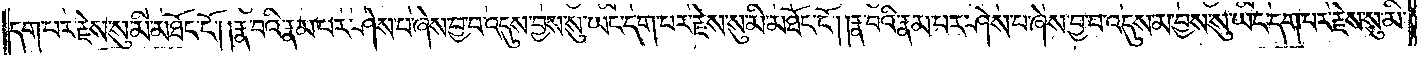དག་པར་རྗེས་སུ་མི་མཐོང་ངོ༌། །རྣ་བའི་རྣམ་པར་ཤེས་པ་ཞེས་བྱ་བ་འདུས་བྱས་སུ་ཡང་དག་པར་རྗེས་སུ་མི་མཐོང་ངོ༌། །རྣ་བའི་རྣམ་པར་ཤེས་པ་ཞེས་བྱ་བ་འདུས་མ་བྱས་སུ་ཡང་དག་པར་རྗེས་སུ་མི་
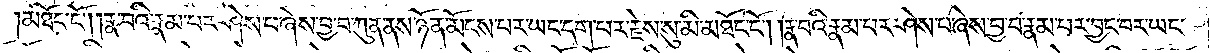མཐོང་ངོ༌། །རྣ་བའི་རྣམ་པར་ཤེས་པ་ཞེས་བྱ་བ་ཀུན་ནས་ཉོན་མོངས་པར་ཡང་དག་པར་རྗེས་སུ་མི་མཐོང་ངོ༌། །རྣ་བའི་རྣམ་པར་ཤེས་པ་ཞེས་བྱ་བ་རྣམ་པར་བྱང་བར་ཡང་
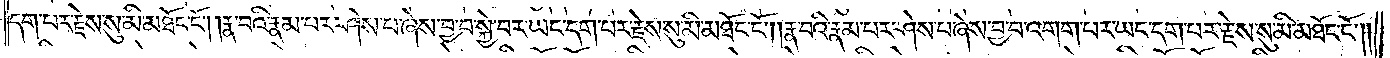དག་པར་རྗེས་སུ་མི་མཐོང་ངོ༌། །རྣ་བའི་རྣམ་པར་ཤེས་པ་ཞེས་བྱ་བ་སྐྱེ་བར་ཡང་དག་པར་རྗེས་སུ་མི་མཐོང་ངོ༌། །རྣ་བའི་རྣམ་པར་ཤེས་པ་ཞེས་བྱ་བ་འགག་པར་ཡང་དག་པར་རྗེས་སུ་མི་མཐོང་ངོ༌༎
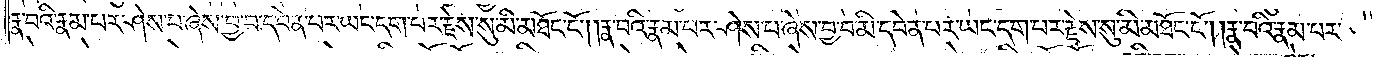རྣ་བའི་རྣམ་པར་ཤེས་པ་ཞེས་བྱ་བ་དབེན་པར་ཡང་དག་པར་རྗེས་སུ་མི་མཐོང་ངོ༌། །རྣ་བའི་རྣམ་པར་ཤེས་པ་ཞེས་བྱ་བ་མི་དབེན་པར་ཡང་དག་པར་རྗེས་སུ་མི་མཐོང་ངོ༌། །རྣ་བའི་རྣམ་པར་
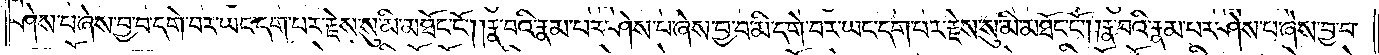ཤེས་པ་ཞེས་བྱ་བ་དགེ་བར་ཡང་དག་པར་རྗེས་སུ་མི་མཐོང་ངོ༌། །རྣ་བའི་རྣམ་པར་ཤེས་པ་ཞེས་བྱ་བ་མི་དགེ་བར་ཡང་དག་པར་རྗེས་སུ་མི་མཐོང་ངོ༌། །རྣ་བའི་རྣམ་པར་ཤེས་པ་ཞེས་བྱ་བ་
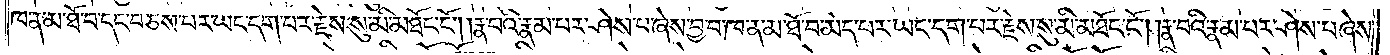ཁ་ན་མ་ཐོ་བ་དང་བཅས་པར་ཡང་དག་པར་རྗེས་སུ་མི་མཐོང་ངོ༌། །རྣ་བའི་རྣམ་པར་ཤེས་པ་ཞེས་བྱ་བ་ཁ་ན་མ་ཐོ་བ་མེད་པར་ཡང་དག་པར་རྗེས་སུ་མི་མཐོང་ངོ༌། །རྣ་བའི་རྣམ་པར་ཤེས་པ་ཞེས་
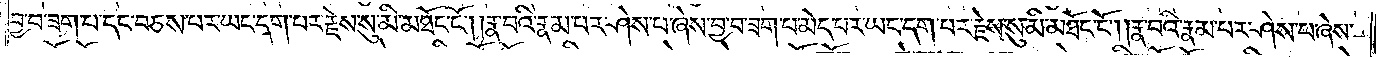བྱ་བ་ཟག་པ་དང་བཅས་པར་ཡང་དག་པར་རྗེས་སུ་མི་མཐོང་ངོ༌། །རྣ་བའི་རྣམ་པར་ཤེས་པ་ཞེས་བྱ་བ་ཟག་པ་མེད་པར་ཡང་དག་པར་རྗེས་སུ་མི་མཐོང་ངོ༌། །རྣ་བའི་རྣམ་པར་ཤེས་པ་ཞེས་
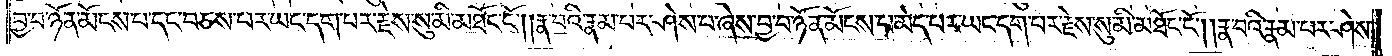བྱ་བ་ཉོན་མོངས་པ་དང་བཅས་པར་ཡང་དག་པར་རྗེས་སུ་མི་མཐོང་ངོ༌། །རྣ་བའི་རྣམ་པར་ཤེས་པ་ཞེས་བྱ་བ་ཉོན་མོངས་པ་མེད་པར་ཡང་དག་པར་རྗེས་སུ་མི་མཐོང་ངོ༌། །རྣ་བའི་རྣམ་པར་ཤེས་
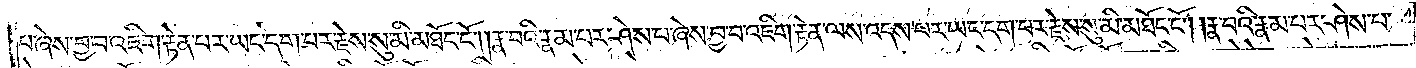པ་ཞེས་བྱ་བ་འཇིག་རྟེན་པར་ཡང་དག་པར་རྗེས་སུ་མི་མཐོང་ངོ༌། །རྣ་བའི་རྣམ་པར་ཤེས་པ་ཞེས་བྱ་བ་འཇིག་རྟེན་ལས་འདས་པར་ཡང་དག་པར་རྗེས་སུ་མི་མཐོང་ངོ༌། །རྣ་བའི་རྣམ་པར་ཤེས་པ་
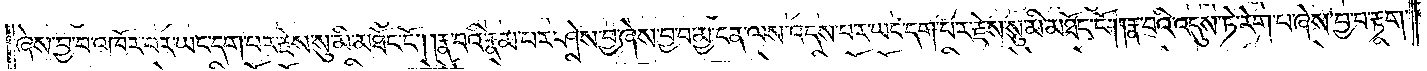ཞེས་བྱ་བ་འཁོར་བར་ཡང་དག་པར་རྗེས་སུ་མི་མཐོང་ངོ༌། །རྣ་བའི་རྣམ་པར་ཤེས་བྱ་ཞེས་བྱ་བ་མྱ་ངན་ལས་འདས་པར་ཡང་དག་པར་རྗེས་སུ་མི་མཐོང་ངོ༌། །རྣ་བའི་འདུས་ཏེ་རེག་པ་ཞེས་བྱ་བ་རྟག་
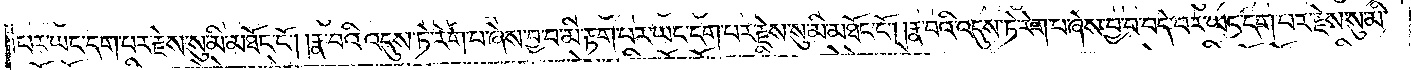པར་ཡང་དག་པར་རྗེས་སུ་མི་མཐོང་ངོ༌། །རྣ་བའི་འདུས་ཏེ་རེག་པ་ཞེས་བྱ་བ་མི་རྟག་པར་ཡང་དག་པར་རྗེས་སུ་མི་མཐོང་ངོ༌། །རྣ་བའི་འདུས་ཏེ་རེག་པ་ཞེས་བྱ་བ་བདེ་བར་ཡང་དག་པར་རྗེས་སུ་མི་
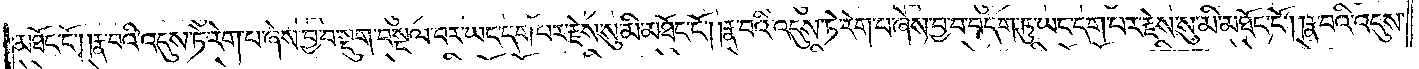མཐོང་ངོ༌། །རྣ་བའི་འདུས་ཏེ་རེག་པ་ཞེས་བྱ་བ་སྡུག་བསྔལ་བར་ཡང་དག་པར་རྗེས་སུ་མི་མཐོང་ངོ༌། །རྣ་བའི་འདུས་ཏེ་རེག་པ་ཞེས་བྱ་བ་བདག་ཏུ་ཡང་དག་པར་རྗེས་སུ་མི་མཐོང་ངོ༌། །རྣ་པའི་འདུས་
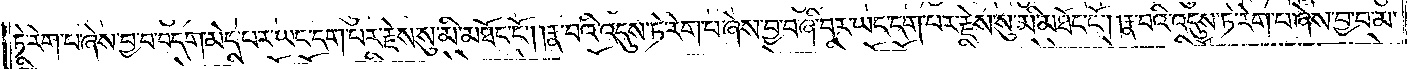ཏེ་རེག་པ་ཞེས་བྱ་བ་བདག་མེད་པར་ཡང་དག་པར་རྗེས་སུ་མི་མཐོང་ངོ༌། །རྣ་བའི་འདུས་ཏེ་རེག་པ་ཞེས་བྱ་བ་ཞི་བར་ཡང་དག་པར་རྗེས་སུ་མི་མཐོང་ངོ༌། །རྣ་བའི་འདུས་ཏེ་རེག་པ་ཞེས་བྱ་བ་མ་
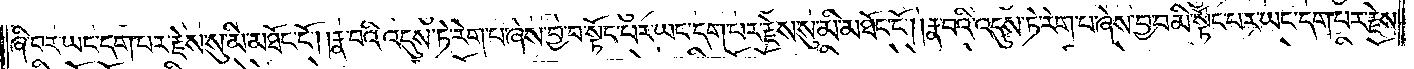ཞི་བར་ཡང་དག་པར་རྗེས་སུ་མི་མཐོང་ངོ༌། །རྣ་བའི་འདུས་ཏེ་རེག་པ་ཞེས་བྱ་བ་སྟོང་པར་ཡང་དག་པར་རྗེས་སུ་མི་མཐོང་ངོ༌། །རྣ་བའི་འདུས་ཏེ་རེག་པ་ཞེས་བྱ་བ་མི་སྟོང་པར་ཡང་དག་པར་རྗེས་
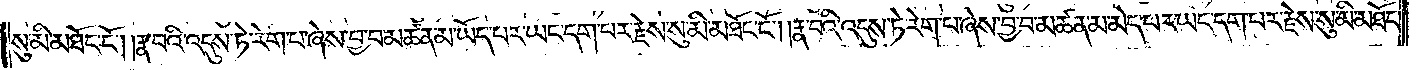སུ་མི་མཐོང་ངོ༌། །རྣ་བའི་འདུས་ཏེ་རེག་པ་ཞེས་བྱ་བ་མཚན་མ་ཡོད་པར་ཡང་དག་པར་རྗེས་སུ་མི་མཐོང་ངོ༌། །རྣ་བའི་འདུས་ཏེ་རེག་པ་ཞེས་བྱ་བ་མཚན་མ་མེད་པར་ཡང་དག་པར་རྗེས་སུ་མི་མཐོང་
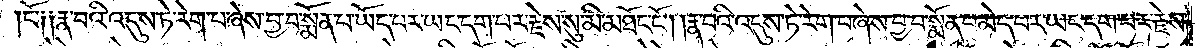ངོ༑ ༑རྣ་བའི་འདུས་ཏེ་རེག་པ་ཞེས་བྱ་བ་སྨོན་པ་ཡོད་པར་ཡང་དག་པར་རྗེས་སུ་མི་མཐོང་ངོ༌། །རྣ་བའི་འདུས་ཏེ་རེག་པ་ཞེས་བྱ་བ་སྨོན་པ་མེད་པར་ཡང་དག་པར་རྗེས་
